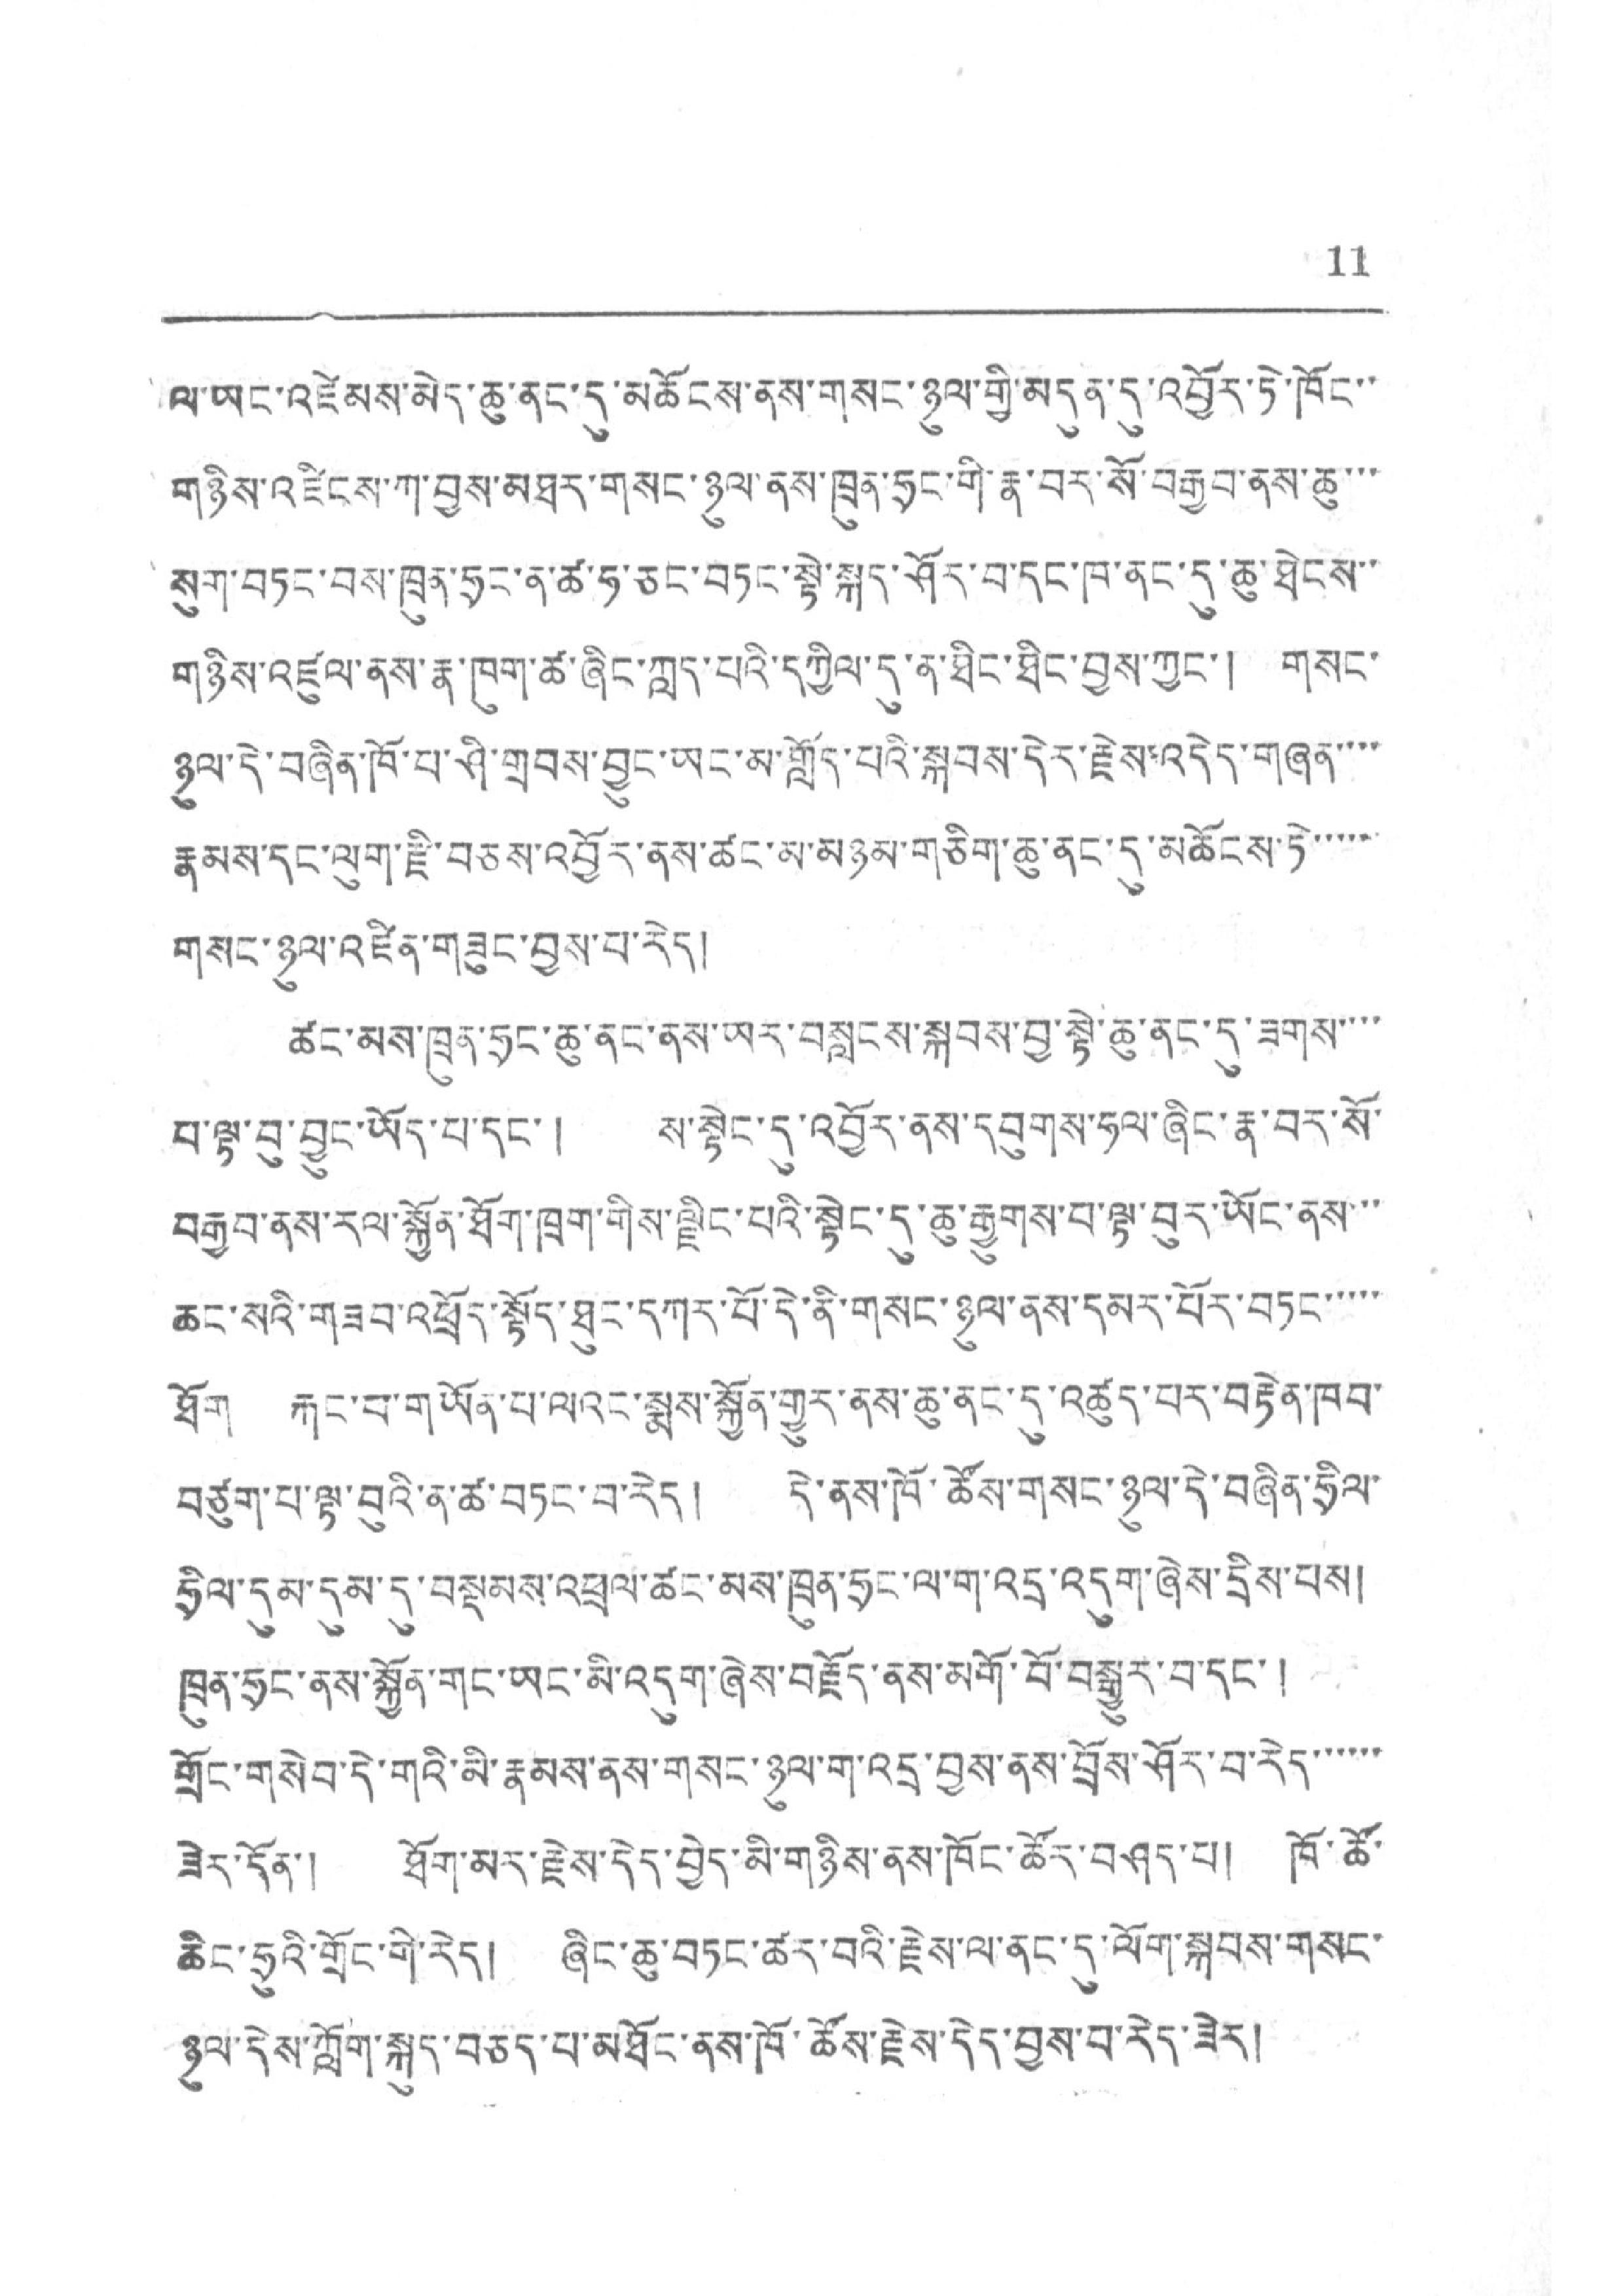11
ལ་ཡང་འཛེམས་མེད་ཆུ་ནང་དུ་མཚོངས་ནས་གསང་ཉལ་གྱི་མདུན་དུ་འབྱོར་ཏེ་ཁོང་་
གཉིས་འཛིངས་ཀ་བྱས་མཐར་གསང་ཉུལ་ནས་ཁྲུན་ཧྲང་གི་རྣ་བར་སོ་བརྒྱབ་ནས་ཆུ་་་
སུག་བཏང་བས་ཁྲུན་ཧྲང་ན་ཚ་ཧ་ཅང་བཏང་སྟེ་སྐད་ཤོར་བ་དང་ཁ་ནང་དུ་ཆུ་ཐེངས་་
གཉིས་འཛུལ་ནས་རྣ་ཁུག་ཚ་ཞིང་ཀླད་པའི་དཀྱིལ་དུ་ན་ཐིང་ཐིང་བྱས་ཀྱང་། གསང་
ཉུལ་དེ་བཞིན་ཁོ་པ་ཤི་གྲབས་བྱུང་ཡང་མ་གློད་པའི་སྐབས་དེར་རྗེས་འདེད་གཞན་་་་
རྣམས་དང་ལུག་ཇི་བཅས་འབྱོར་ནས་ཚང་མ་མཉམ་གཅིག་ཆུ་ནང་དུ་མཚོངས་ཏེ་་་་་་
གསང་ཉུལ་འཛིན་གཟུང་བྱས་པ་རེད།
ཚང་མས་ཁྲུན་ཧྲང་ཆུ་ནང་ནས་ཡར་བསླངས་སྐབས་བྱ་སྟེ་ཆུ་ནང་དུ་ཟགས་་་་
བ་ལྟ་བུ་བྱུང་ཡོད་པ་དང་། ས་སྟེང་དུ་འབྱོར་ནས་དབུགས་ཧལ་ཞིང་རྣ་བར་སོ་
བརྒྱབ་ནས་རལ་སྐྱོན་ཐོག་ཁྲག་གིས་ལྗིང་པལི་སྟེང་དུ་ཆུ་རྒྱུགས་བ་ལྟ་བུར་ཡོང་ནས་་་
ཆང་སའི་གཟབ་འཕྲོད་སྟོད་ཐུང་དཀར་པོ་དེ་ནི་གསང་ཉུལ་ནས་དམར་པོར་བཏང་་་་་
ཐོག རྐང་བ་གཡོན་པ་ལའང་སྨས་སྐྱོན་གྱུར་ནས་ཆུ་ནང་དུ་འཚུད་པར་བརྟེན་ཁབ་
བཙུག་པ་ལྟ་བུའི་ན་ཚ་བཏང་བ་རེད། དེ་ནས་ཁོ་ཚོས་གསང་ཉུལ་དེ་བཞིན་ཧྲིལ་
ཧྲིལ་དུམ་དུམ་དུ་བསྡམས་འཕྲལ་ཚང་མས་ཁྲུན་ཧྲང་ལ་ག་འདྲ་འདུག་ཞེས་དྲིས་པས།
ཁྲུན་ཧྲང་ནས་སྐྱོན་གང་ཡང་མི་འདུག་ཞེས་བརྗོད་ནས་མགོ་བོ་བསྒྱུར་བ་དང་།
གྲོང་གསེབ་དེ་གའི་མི་རྣམས་ནས་གསང་ཉུལ་ག་འདྲ་བྱས་ནས་བྲོས་ཤོར་བ་རེད་་་་་་
ཟེར་དོན་། ཐོག་མར་རྗེས་དེད་བྱེད་མི་གཉིས་ནས་ཁོང་ཚོར་བཤད་པ། ཁོ་ཚོ་
ཆིང་ཧྲུའི་གྲོང་གི་རེད། ཞིང་ཆུ་བཏང་ཚར་བའི་རྗེས་ལ་ནང་དུ་ལོག་སྐབས་གསང་
ཉུལ་དེས་ཀློག་སྐུད་བཅད་པ་མཐོང་ནས་ཁོ་ཚོས་རྗེས་དེད་བྱས་བ་རེད་ཟེར།
